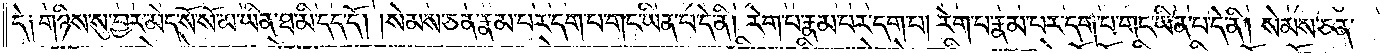དེ། གཉིས་སུ་བྱར་མེད་སོ་སོ་མ་ཡིན་ཐ་མི་དད་དོ། །སེམས་ཅན་རྣམ་པར་དག་པ་གང་ཡིན་པ་དེ་ནི། རེག་པ་རྣམ་པར་དག་པ། རེག་པ་རྣམ་པར་དག་པ་གང་ཡིན་པ་དེ་ནི། སེམས་ཅན་
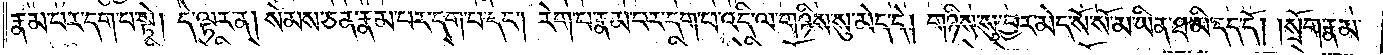རྣམ་པར་དག་པ་སྟེ། དེ་ལྟར་ན། སེམས་ཅན་རྣམ་པར་དག་པ་དང༌། རེག་པ་རྣམ་པར་དག་པ་འདི་ལ་གཉིས་སུ་མེད་དེ། གཉིས་སུ་བྱར་མེད་སོ་སོ་མ་ཡིན་ཐ་མི་དད་དོ། །སྲོག་རྣམ་
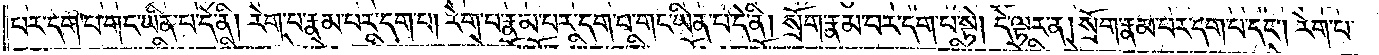པར་དག་པ་གང་ཡིན་པ་དེ་ནི། རེག་པ་རྣམ་པར་དག་པ། རེག་པ་རྣམ་པར་དག་པ་གང་ཡིན་པ་དེ་ནི། སྲོག་རྣམ་པར་དག་པ་སྟེ། དེ་ལྟར་ན། སྲོག་རྣམ་པར་དག་པ་དང༌། རེག་པ་
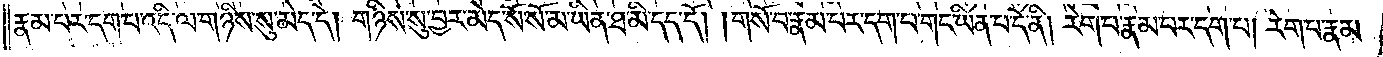རྣམ་པར་དག་པ་འདི་ལ་གཉིས་སུ་མེད་དེ། གཉིས་སུ་བྱར་མེད་སོ་སོ་མ་ཡིན་ཐ་མི་དད་དོ། །གསོ་བ་རྣམ་པར་དག་པ་གང་ཡིན་པ་དེ་ནི། རེག་པ་རྣམ་པར་དག་པ། རེག་པ་རྣམ་
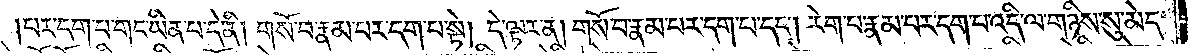པར་དག་པ་གང་ཡིན་པ་དེ་ནི། གསོ་བ་རྣམ་པར་དག་པ་སྟེ། དེ་ལྟར་ན། གསོ་བ་རྣམ་པར་དག་པ་དང༌། རེག་པ་རྣམ་པར་དག་པ་འདི་ལ་གཉིས་སུ་མེད་
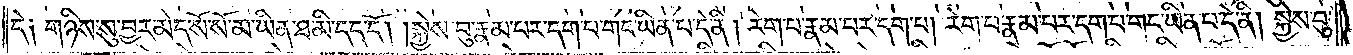དེ། གཉིས་སུ་བྱར་མེད་སོ་སོ་མ་ཡིན་ཐ་མི་དད་དོ། །སྐྱེས་བུ་རྣམ་པར་དག་པ་གང་ཡིན་པ་དེ་ནི། རེག་པ་རྣམ་པར་དག་པ། རེག་པ་རྣམ་པར་དག་པ་གང་ཡིན་པ་དེ་ནི། སྐྱེས་བུ་
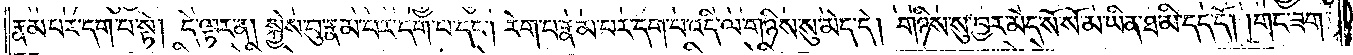རྣམ་པར་དག་པ་སྟེ། དེ་ལྟར་ན། སྐྱེས་བུ་རྣམ་པར་དག་པ་དང༌། རེག་པ་རྣམ་པར་དག་པ་འདི་ལ་གཉིས་སུ་མེད་དེ། གཉིས་སུ་བྱར་མེད་སོ་སོ་མ་ཡིན་ཐ་མི་དད་དོ། །གང་ཟག་
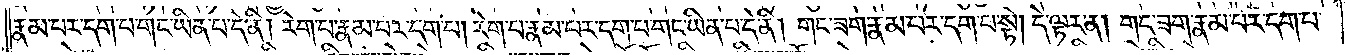རྣམ་པར་དག་པ་གང་ཡིན་པ་དེ་ནི། རེག་པ་རྣམ་པར་དག་པ། རེག་པ་རྣམ་པར་དག་པ་གང་ཡིན་པ་དེ་ནི། གང་ཟག་རྣམ་པར་དག་པ་སྟེ། དེ་ལྟར་ན། གང་ཟག་རྣམ་པར་དག་པ་
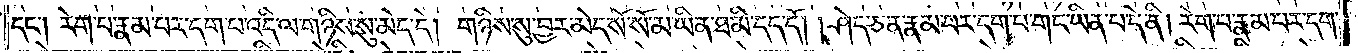དང༌། རེག་པ་རྣམ་པར་དག་པ་འདི་ལ་གཉིས་སུ་མེད་དེ། གཉིས་སུ་བྱར་མེད་སོ་སོ་མ་ཡིན་ཐ་མི་དད་དོ། །ཤེད་ཅན་རྣམ་པར་དག་པ་གང་ཡིན་པ་དེ་ནི། རེག་པ་རྣམ་པར་དག་
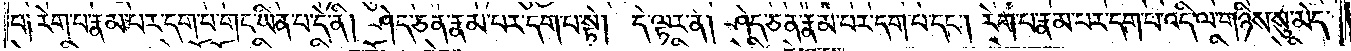པ། རེག་པ་རྣམ་པར་དག་པ་གང་ཡིན་པ་དེ་ནི། ཤེད་ཅན་རྣམ་པར་དག་པ་སྟེ། དེ་ལྟར་ན། ཤེད་ཅན་རྣམ་པར་དག་པ་དང༌། རེག་པ་རྣམ་པར་དག་པ་འདི་ལ་གཉིས་སུ་མེད་
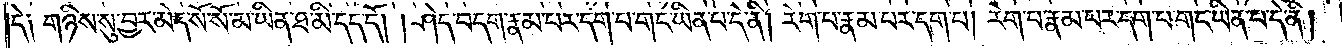དེ། གཉིས་སུ་བྱར་མེད་སོ་སོ་མ་ཡིན་ཐ་མི་དད་དོ། །ཤེད་བདག་རྣམ་པར་དག་པ་གང་ཡིན་པ་དེ་ནི། རེག་པ་རྣམ་པར་དག་པ། རེག་པ་རྣམ་པར་དག་པ་གང་ཡིན་པ་དེ་ནི།
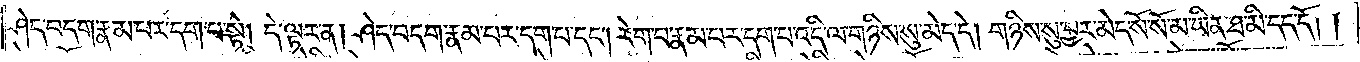ཤེད་བདག་རྣམ་པར་དག་པ་སྟེ། དེ་ལྟར་ན། ཤེད་བདག་རྣམ་པར་དག་པ་དང༌། རེག་པ་རྣམ་པར་དག་པ་འདི་ལ་གཉིས་སུ་མེད་དེ། གཉིས་སུ་བྱར་མེད་སོ་སོ་མ་ཡིན་ཐ་མི་དད་དོ། །
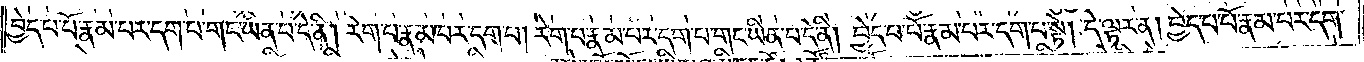བྱེད་པ་པོ་རྣམ་པར་དག་པ་གང་ཡིན་པ་དེ་ནི། རེག་པ་རྣམ་པར་དག་པ། རེག་པ་རྣམ་པར་དག་པ་གང་ཡིན་པ་དེ་ནི། བྱེད་པ་པོ་རྣམ་པར་དག་པ་སྟེ། དེ་ལྟར་ན། བྱེད་པ་པོ་རྣམ་པར་དག་
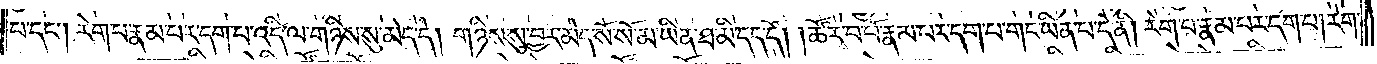པ་དང༌། རེག་པ་རྣམ་པར་དག་པ་འདི་ལ་གཉིས་སུ་མེད་དེ། གཉིས་སུ་བྱར་མེད་སོ་སོ་མ་ཡིན་ཐ་མི་དད་དོ། །ཚོར་བ་པོ་རྣམ་པར་དག་པ་གང་ཡིན་པ་དེ་ནི། རེག་པ་རྣམ་པར་དག་པ། རེག་
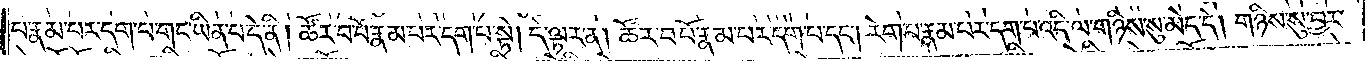པ་རྣམ་པར་དག་པ་གང་ཡིན་པ་དེ་ནི། ཚོར་བ་པོ་རྣམ་པར་དག་པ་སྟེ། དེ་ལྟར་ན། ཚོར་བ་པོ་རྣམ་པར་དག་པ་དང༌། རེག་པ་རྣམ་པར་དག་པ་འདི་ལ་གཉིས་སུ་མེད་དེ། གཉིས་སུ་བྱར་
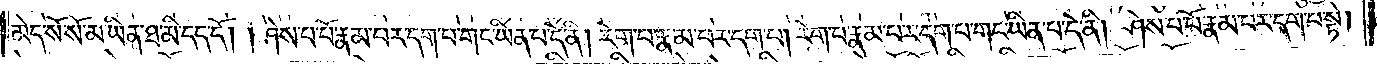མེད་སོ་སོ་མ་ཡིན་ཐ་མི་དད་དོ། །ཤེས་པ་པོ་རྣམ་པར་དག་པ་གང་ཡིན་པ་དེ་ནི། རེག་པ་རྣམ་པར་དག་པ། རེག་པ་རྣམ་པར་དག་པ་གང་ཡིན་པ་དེ་ནི། ཤེས་པ་པོ་རྣམ་པར་དག་པ་སྟེ།
